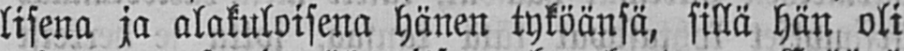lisena ja alakuloisena hänen tyköänsä, sillä hän oli
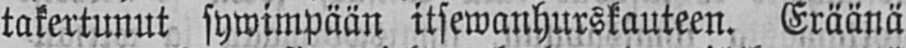takertunut sywimpään itsewanhurskauteen. Eräänä
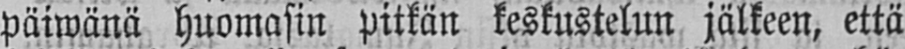päiwänä huomasin pitkän keskustelun jälkeen, että
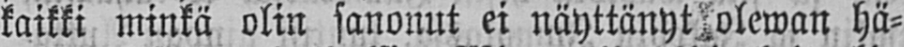kaikki minkä olin sanonut ei näyttänyt olewan hä-
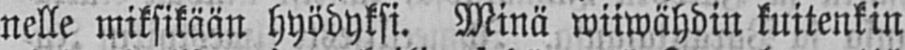nelle miksikään hyödyksi. Minä wiiwähdin kuitenkin
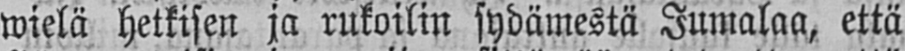wielä hetkisen ja rukoilin sydämestä Jumalaa, että
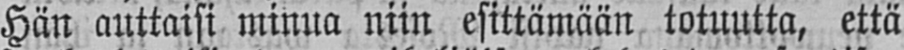Hän auttaisi minua niin esittämään totuutta, että
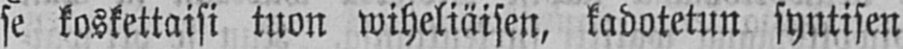se koskettaisi tuon wiheliäisen, kadotetun syntisen
